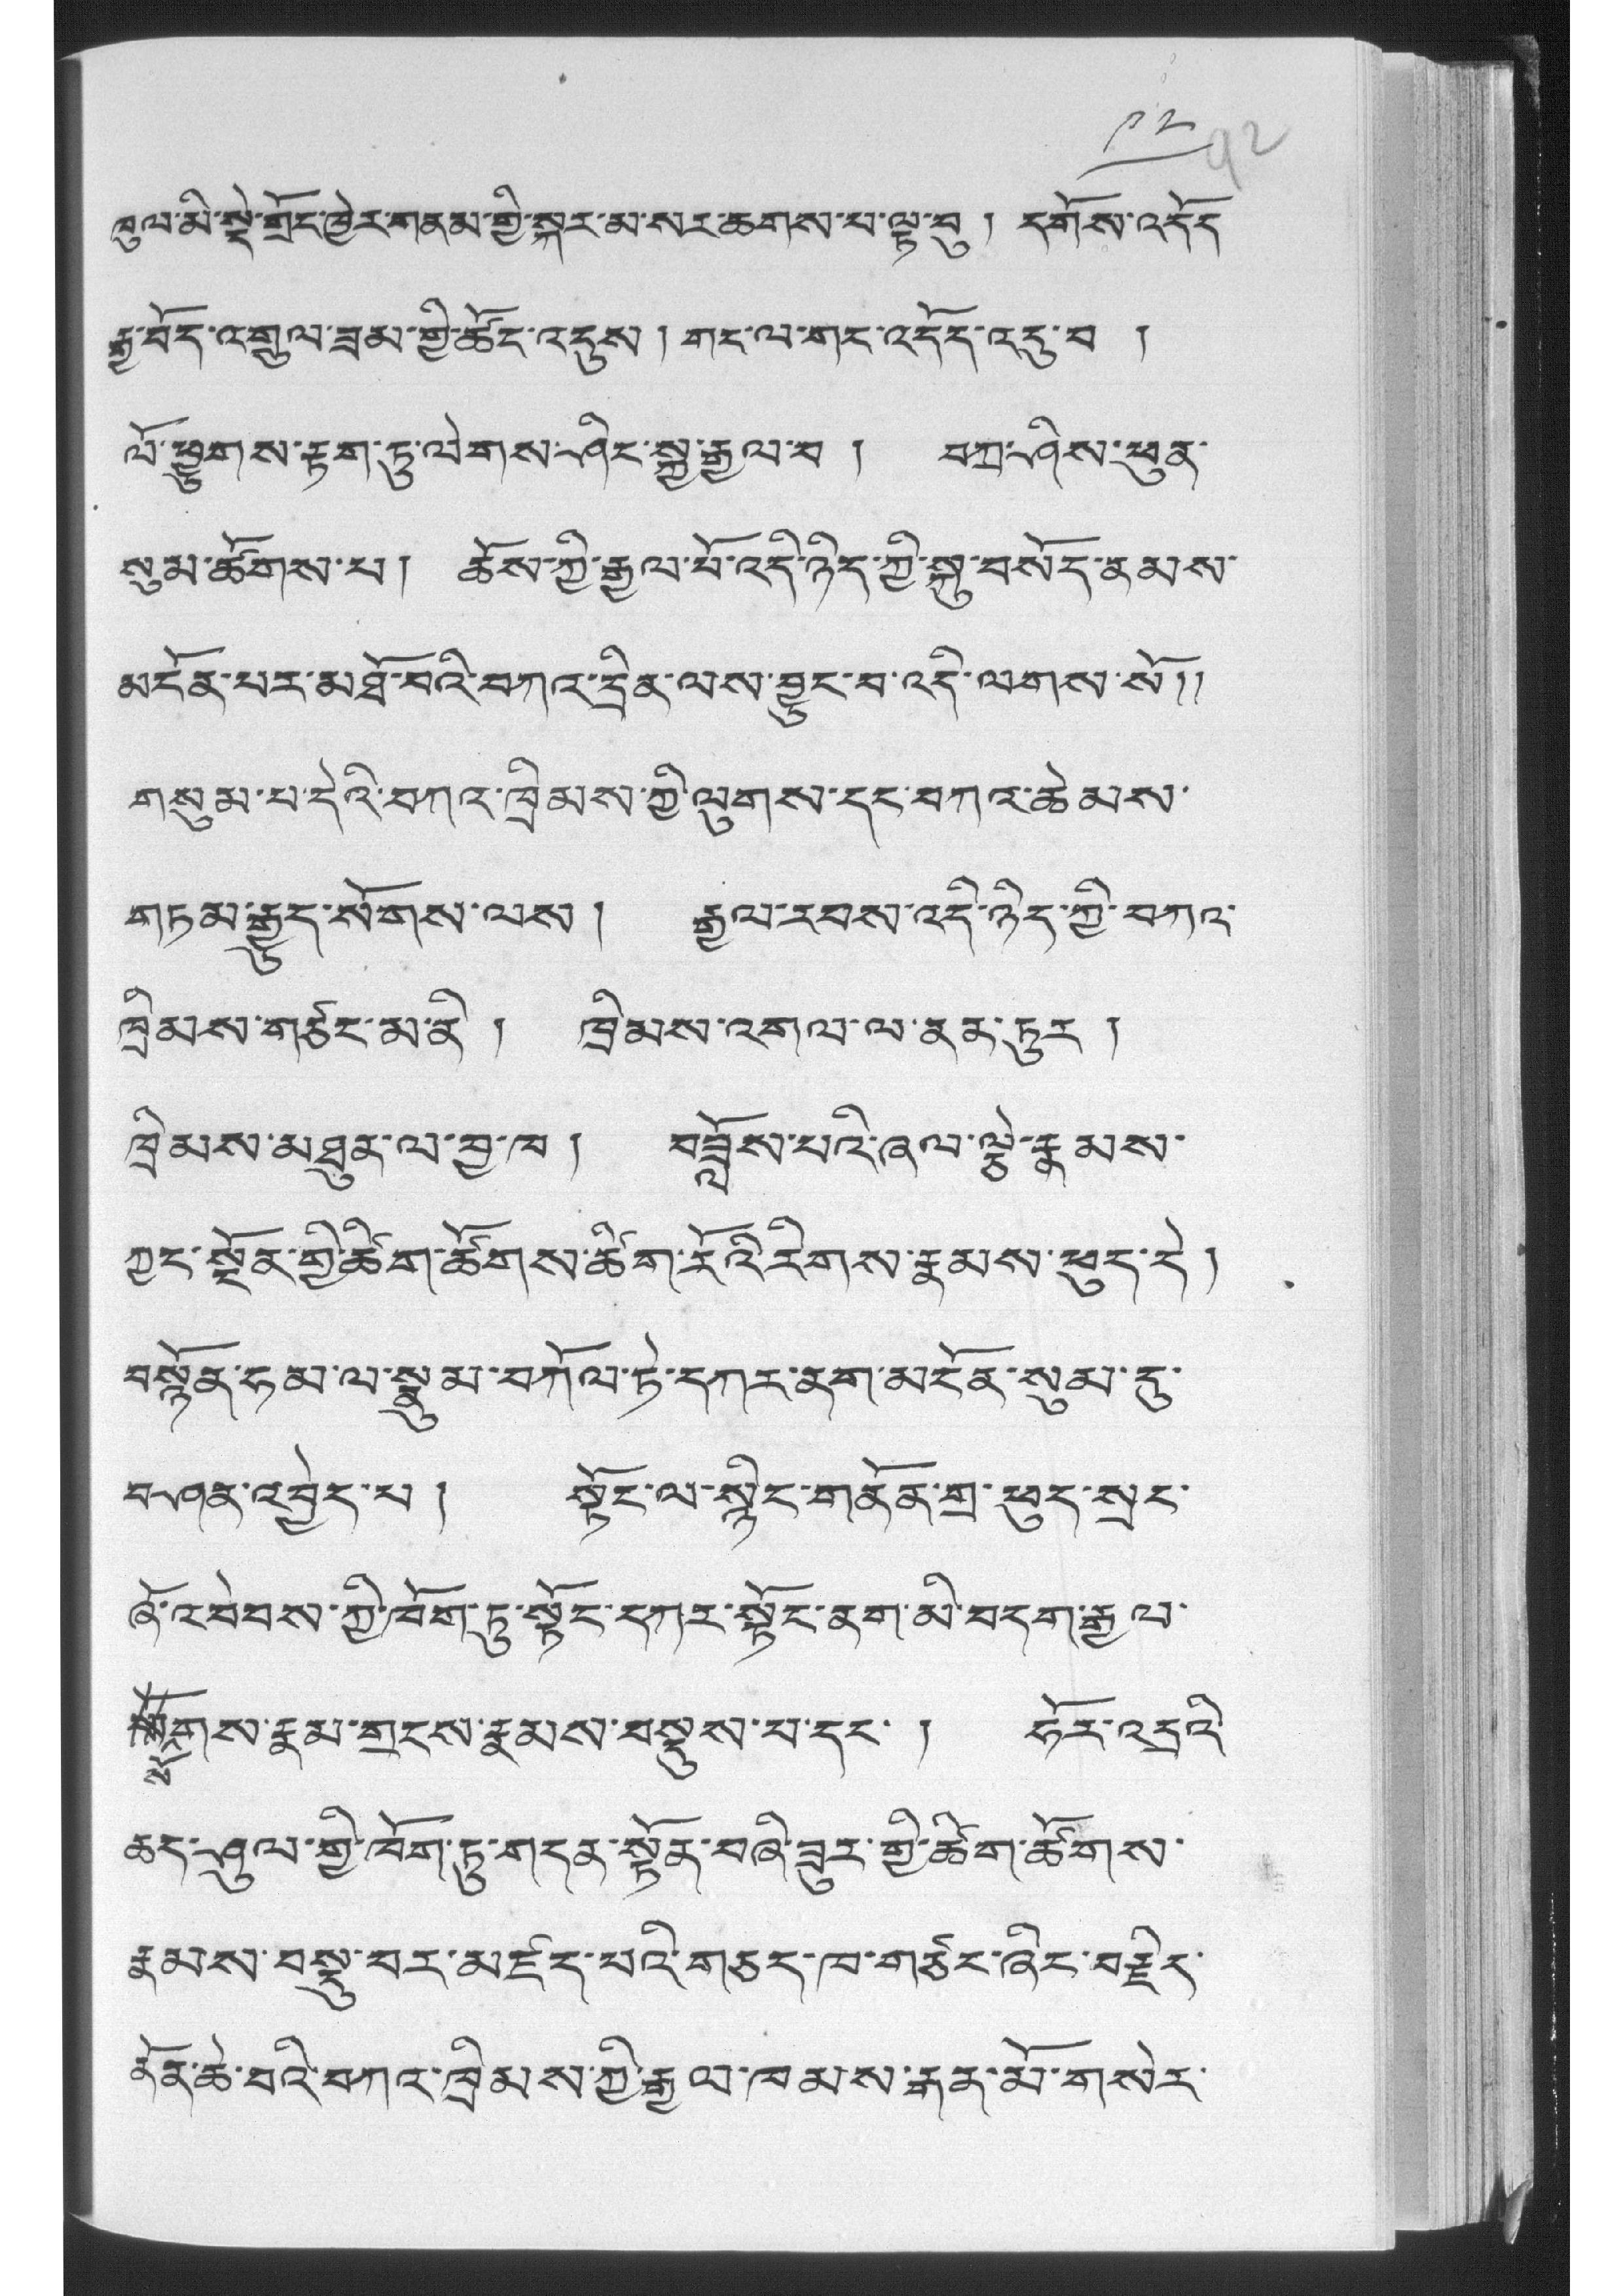༩༢
ཁུལ་མི་སྡེ་གྲོང་ཁྱེར་གནམ་གྱི་སྐར་མ་སར་ཆགས་པ་ལྟ་བུ ། དགོས་འདོད
རྒྱ་བོད་འགྲུལ་ཟམ་གྱི་ཚོང་འདུས། གང་ལ་གར་འདོད་འདུ་བ །
ལོ་ཕྱུགས་རྟག་ཏུ་ལེགས་ཤིང་སྐྱ་རྒྱལ་བ ། བཀྲ་ཤིས་ཕུན་
སུམ་ཚོགས་པ། ཆོས་ཀྱི་རྒྱལ་པོ་འདི་ཉིད་ཀྱི་སྐུ་བསོད་ནམས་
མངོན་པར་མཐོ་བའི་བཀའ་དྲིན་ལས་བྱུང་བ་འདི་ལགས་སོ།།
གསུམ་པ་དེའི་བཀའ་ཁྲིམས་ཀྱི་ལུགས་དང་བཀའ་ཆེམས་
གཏམ་རྒྱུད་སོགས་ལས། རྒྱལ་རབས་འདི་ཉིད་ཀྱི་བཀའ་
ཁྲིམས་གཙང་མ་ནི ། ཁྲིམས་འགལ་ལ་ནན་ཏུར །
ཁྲིམས་མཐུན་ལ་བྱ་ཁ། བཟློས་པའི་ཞལ་ལྕེ་རྣམས་
ཀྱང་སྔོན་གྱི་ཚིག་ཚོགས་ཚིག་རོའི་རིགས་རྣམས་ཕུད་དེ།
བསྙོན་ཧམ་ལ་སྣུམ་བཀོལ་ཏེ་དཀར་ནག་མངོན་སུམ་དུ་
བཤན་འབྱེད་པ ། སྟོང་ལ་སྙིང་གནོན་གྲ་ཕུད་སྲང་
ཞོ་འབེབས་ཀྱི་ཁོག་ཏུ་སྟོང་དཀར་སྟོང་ནག་མི་བདག་རྒྱལ་
སོསོགས་རྣམ་གྲངས་རྣམས་བསྡུས་པ་དང་ ། ཧོར་འདྲའི་
ཆད་ཤུལ་གྱི་ཁོག་ཏུ་གདན་སྟོན་བཞི་ཟུར་གྱི་ཚིག་ཚོགས་
རྣམས་བསྡུ་བར་མཛད་པའི་གཅད་ཁ་གཙང་ཞིང་བརྗིད་
ནོན་ཆེ་བའི་བཀའ་ཁྲིམས་ཀྱི་རྒྱལ་ཁམས་རྒན་མོ་གསེར་
